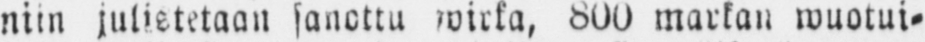niin julistetaan sanottu wirka, 800 markan wuotui-
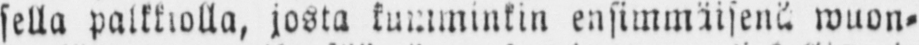sella palkkiolla, josta kumminkin ensimmäisenä wuon-
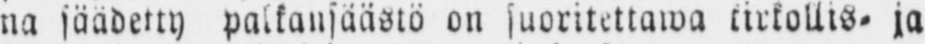na säädetty palkansäästö on suoritettawa kirkollis- ja
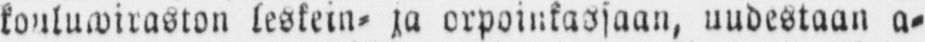kouluwiraston leskein- ja orpoinkassaan, uudestaan a-
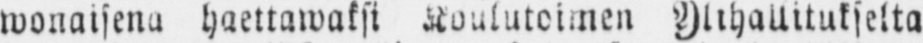wonaisena haettawaksi Koulutoimen Ylihallitukselta
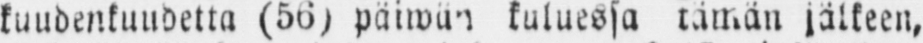kuudenkuudetta (56) päiwän kuluessa tämän jälkeen,
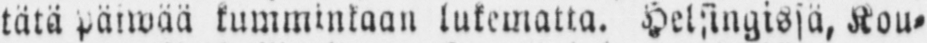tätä päiwää kumminkaan lukematta. Helsingissä, Kou-
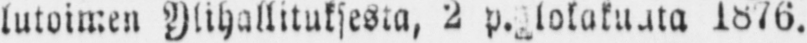lutoimen Ylihallituksesta, 2 p. lokukuata 1876.
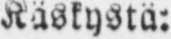Käskystä:
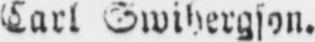Carl Swihergson.
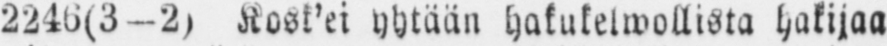2246(3—2) Kosk'ei yhtään hakukelwollista hakijaa
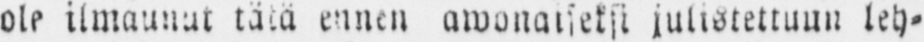ole ilmaunut tätä ennen awonaiseksi julistettuun leh-
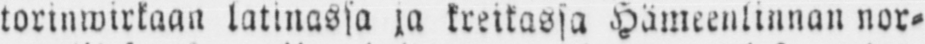torinwirkaan latinassa ja kreikassa Hämeenlinnan nor-
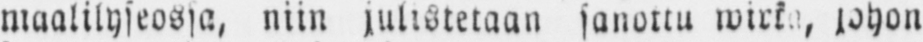maalilyseossa, niin julistetaan sanottu wirk a, johon
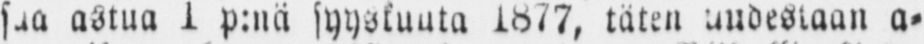saa astua 1 p:nä syyskuuta 1877, täten uudestaan a-
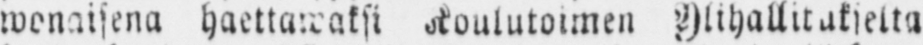wonaisena haettawaksi Koulutoimen Ylihallitukselta
